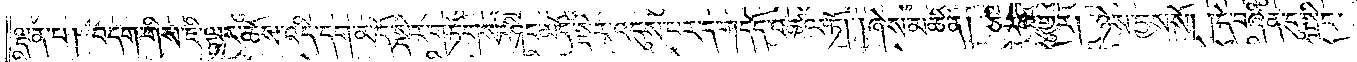ལྡན་པ། བདག་གིས་ཇི་ལྟར་ཆོས་འདི་དག་མདོ་སྡེར་གཏོགས་ཤིང་མདོ་སྡེར་འདུས་པར་ད་གདོད་འཚལ་ཏོ། །ཞེས་མཆི་ན། ཅིར་འགྱུར། ཉེས་བྱས་སོ། །དེ་བཞིན་དུ་སྤྲིང་
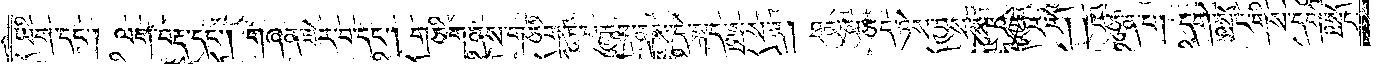ཡིག་དང༌། ལག་བརྡ་དང༌། གཞན་ཟེར་བ་དང༌། གཅིག་ནས་གཅིག་ཏུ་བརྒྱུད་ནས་དེ་སྐད་སྨྲས་ན། ཐམས་ཅད་ཉེས་བྱས་སུ་འགྱུར་རོ། །བཙུན་པ། དགེ་སློང་གིས་དགེ་སློང་
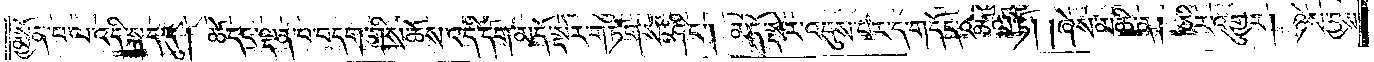སྨྱོན་པ་ལ་འདི་སྐད་དུ། ཚེ་དང་ལྡན་པ་བདག་གིས་ཆོས་འདི་དག་མདོ་སྡེར་གཏོགས་ཤིང༌། མདོ་སྡེར་འདུས་པར་ད་གདོད་འཚལ་ཏོ། །ཞེས་མཆི་ན། ཅིར་འགྱུར། ཉེས་བྱས་
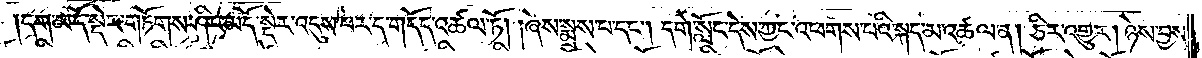།དག་མདོ་སྡེར་གཏོགས་ཤིང་མདོ་སྡེར་འདུས་པར་ད་གདོད་འཚལ་ཏོ། །ཞེས་སྨྲས་པ་དང༌། དགེ་སློང་དེས་ཀྱང་འཕགས་པའི་སྐད་མ་འཚལ་ན། ཅིར་འགྱུར། ཉེས་བྱས་
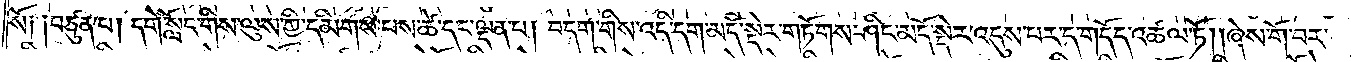སོ༑ ༑བཙུན་པ། དགེ་སློང་གིས་ལུས་ཀྱི་དམིགས་པས་ཚེ་དང་ལྡན་པ། བདག་གིས་འདི་དག་མདོ་སྡེར་གཏོགས་ཤིང་མདོ་སྡེར་འདུས་པར་ད་གདོད་འཚལ་ཏོ། །ཞེས་གོ་བར་
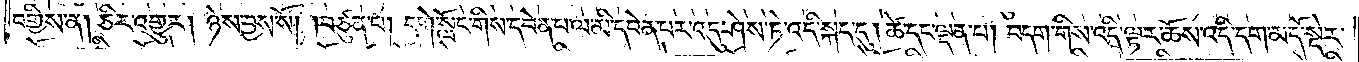བགྱིས་ན། ཅིར་འགྱུར། ཉེས་བྱས་སོ། །བཙུན་པ། དགེ་སློང་གིས་དབེན་པ་ལ་མི་དབེན་པར་འདུ་ཤེས་ཏེ་འདི་སྐད་དུ། ཚེ་དང་ལྡན་པ། བདག་གིས་འདི་ལྟར་ཆོས་འདི་དག་མདོ་སྡེར་
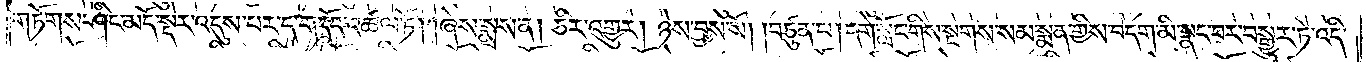གཏོགས་ཤིང་མདོ་སྡེར་འདུས་པར་ད་གདོད་འཚལ་ཏོ། །ཞེས་སྨྲས་ན། ཅིར་འགྱུར། ཉེས་བྱས་སོ། །བཙུན་པ། དགེ་སློང་གིས་སྔགས་སམ་སྨན་གྱིས་བདག་མི་སྣང་བར་བསྒྱུར་ཏེ་འདི་
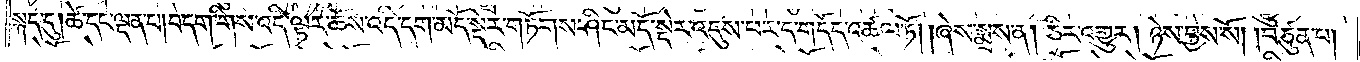སྐད་དུ། ཚེ་དང་ལྡན་པ། བདག་གིས་འདི་ལྟར་ཆོས་འདི་དག་མདོ་སྡེར་གཏོགས་ཤིང་མདོ་སྡེར་འདུས་པར་ད་གདོད་འཚལ་ཏོ། །ཞེས་སྨྲས་ན། ཅིར་འགྱུར། ཉེས་བྱས་སོ། །བཙུན་པ།
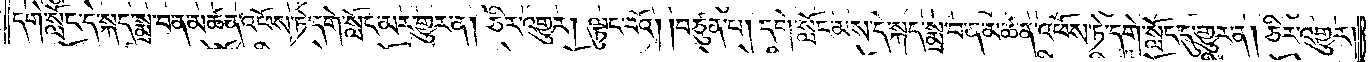དགེ་སློང་དེ་སྐད་སྨྲ་བ་ན་མཚན་འཕོས་ཏེ་དགེ་སློང་མར་གྱུར་ན། ཅིར་འགྱུར། ལྟུང་བའོ། །བཙུན་པ། དགེ་སློང་མས་དེ་སྐད་སྨྲ་བ་ན་མཚན་འཕོས་ཏེ་དགེ་སློང་དུ་གྱུར་ན། ཅིར་འགྱུར་
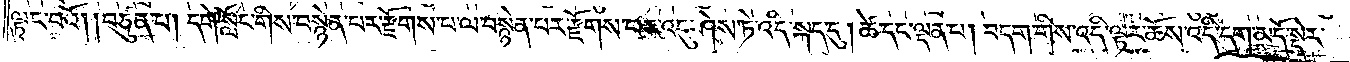ལྟུང་བའོ། །བཙུན་པ། དགེ་སློང་གིས་བསྙེན་པར་རྫོགས་པ་ལ་བསྙེན་པར་རྫོགས་པར་འདུ་ཤེས་ཏེ་འདི་སྐད་དུ། ཚེ་དང་ལྡན་པ། བདག་གིས་འདི་ལྟར་ཆོས་འདི་དག་མདོ་སྡེར་
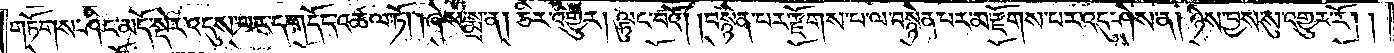གཏོགས་ཤིང་མདོ་སྡེར་འདུས་པར་ད་གདོད་འཚལ་ཏོ། །ཞེས་སྨྲ་ན། ཅིར་འགྱུར། ལྟུང་བའོ། །བསྙེན་པར་རྫོགས་པ་ལ་བསྙེན་པར་མ་རྫོགས་པར་འདུ་ཤེས་ན། ཉེས་བྱས་སུ་འགྱུར་རོ། །
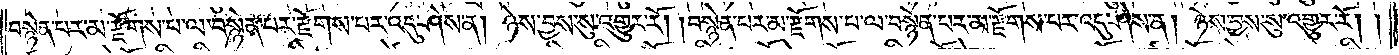བསྙེན་པར་མ་རྫོགས་པ་ལ་བསྙེན་པར་རྫོགས་པར་འདུ་ཤེས་ན། ཉེས་བྱས་སུ་འགྱུར་རོ། །བསྙེན་པར་མ་རྫོགས་པ་ལ་བསྙེན་པར་མ་རྫོགས་པར་འདུ་ཤེས་ན། ཉེས་བྱས་སུ་འགྱུར་རོ། །
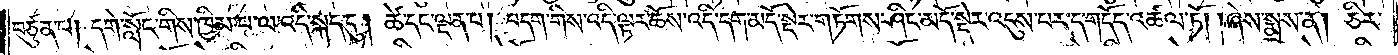བཙུན་པ། དགེ་སློང་གིས་ཁྱིམ་པ་ལ་འདི་སྐད་དུ། ཚེ་དང་ལྡན་པ། བདག་གིས་འདི་ལྟར་ཆོས་འདི་དག་མདོ་སྡེར་གཏོགས་ཤིང་མདོ་སྡེར་འདུས་པར་ད་གདོད་འཚལ་ཏོ། །ཞེས་སྨྲས་ན། ཅིར་
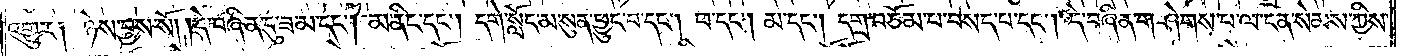འགྱུར༑ ཉེས་བྱས་སོ། །དེ་བཞིན་དུ་ཟ་མ་དང༌། མ་ནིང་དང༌། དགེ་སློང་མ་སུན་ཕྱུང་བ་དང༌། ཕ་དང༌། མ་དང༌། དགྲ་བཅོམ་པ་བསད་པ་དང༌། དེ་བཞིན་གཤེགས་པ་ལ་ངན་སེམས་ཀྱིས་
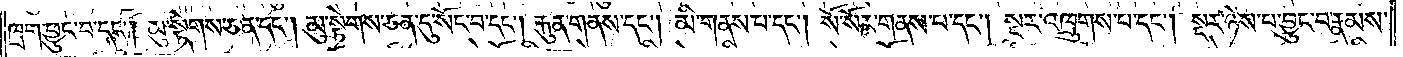ཁྲག་ཕྱུང་བ་དང༌། མུ་སྟེགས་ཅན་དང༌། མུ་སྟེགས་ཅན་དུ་སོང་བ་དང༌། རྐུན་གནས་དང༌། མི་གནས་པ་དང༌། སོ་སོར་གནས་པ་དང༌། སྔར་འཁྲུགས་པ་དང༌། སྔར་ཉེས་པ་བྱུང་བ་རྣམས་
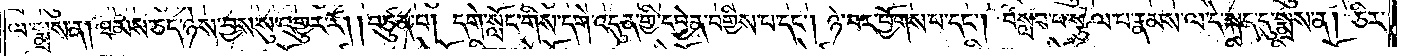ལ་སྨྲས་ན། ཐམས་ཅད་ཉེས་བྱས་སུ་འགྱུར་རོ། །བཙུན་པ། དགེ་སློང་གིས་དགེ་འདུན་གྱི་དབྱེན་བགྱིས་པ་དང༌། ཉེ་བར་ཕྱོགས་པ་དང༌། བསླབ་པ་སྩལ་པ་རྣམས་ལ་དེ་སྐད་དུ་སྨྲས་ན། ཅིར་
